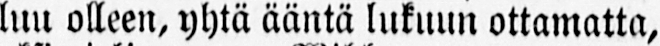luu olleen, yhtä ääntä lukuun ottamatta,
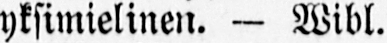yksimielinen. — Wibl.
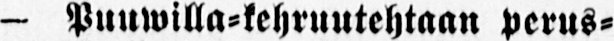- Puuwilla-kehruutehtaan perus-
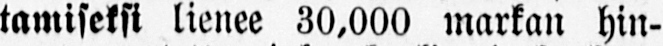tamiseksi lienee 30,000 markan hin-
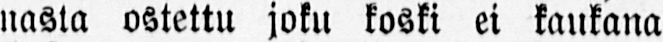nasta ostettu joku koski ei kaukana
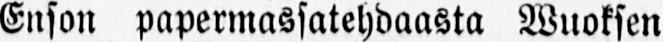Enson papermassatehdaasta Wuoksen
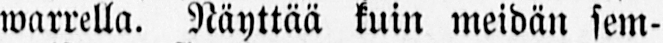warrella. Näyttää kuin meidän sem-
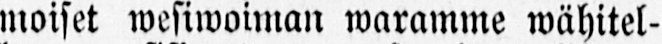moiset wesiwoiman waramme wähitel-
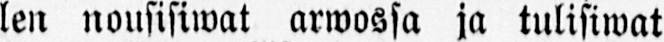len nousisiwat arwossa ja tulisiwat
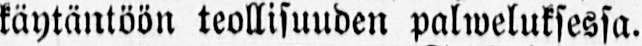käytäntöön teollisuuden palweluksessa.
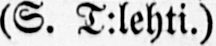(S. T:lehti.)
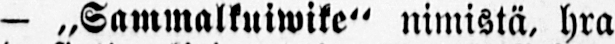— „Sammalkuiwike" nimistä, hra
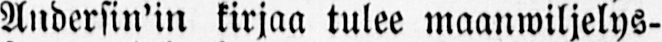Andersin'in kirjaa tulee maanwiljelys-
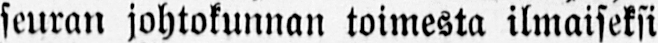seuran johtokunnan toimesta ilmaiseksi
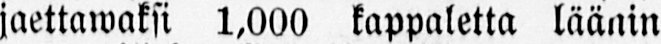jaettawaksi 1,000 kappaletta läänin
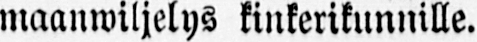maanwiljelys kinkerikunnille.
